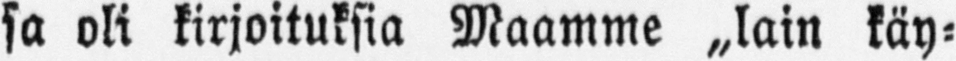sa oli kirjoituksia Maamme „lain käy-
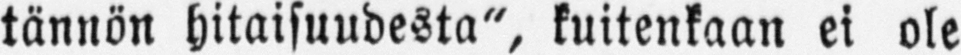tännön hitaisuudesta", kuitenkaan ei ole
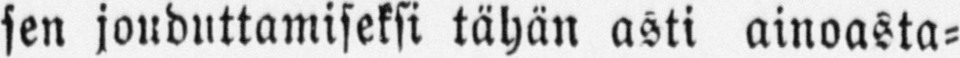sen jouduttamiseksi tähän asti ainoasta-
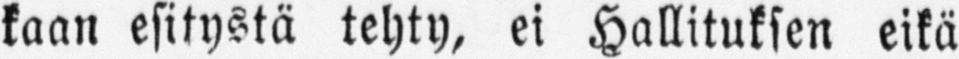kaan esitystä tehty, ei Hallituksen eikä
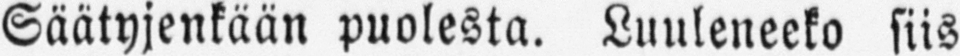Säätyjenkään puolesta. Luuleneeko siis
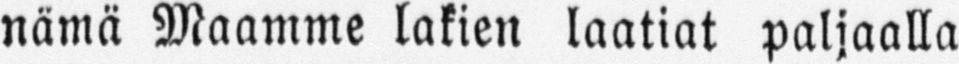nämä Maamme lakien laatiat paljaalla
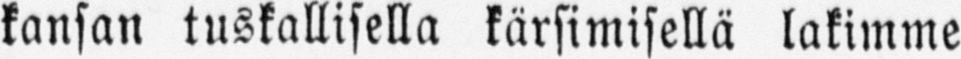kansan tuskallisella kärsimisellä lakimme
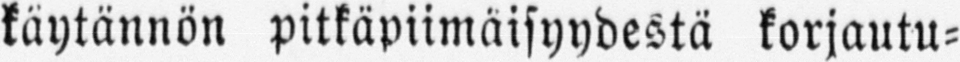käytännön pitkäpiimäisyydestä korjautu-
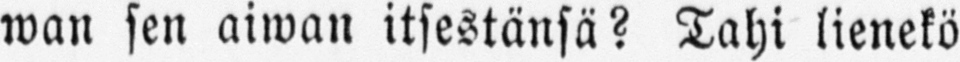wan sen aiwan itsestänsä? Tahi lienekö
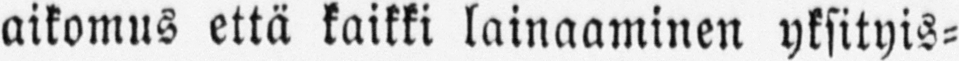aikomus että kaikki lainaaminen yksityis-
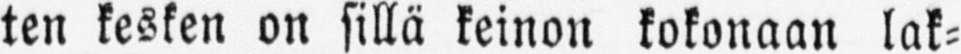ten kesken on sillä keinon kokonaan lak-
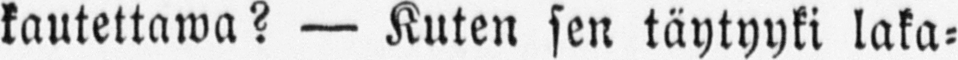kautettawa? — Kuten sen täytyyki laka-
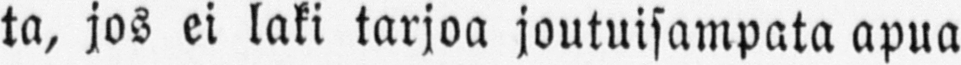ta, jos ei laki tarjoa joutuisampata apua
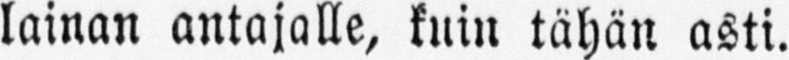lainan antajalle, kuin tähän asti.
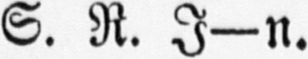S. R. I-n.
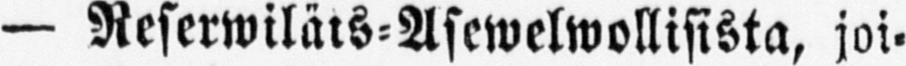— Reserwiläis-Asewelwollisista, joi-
